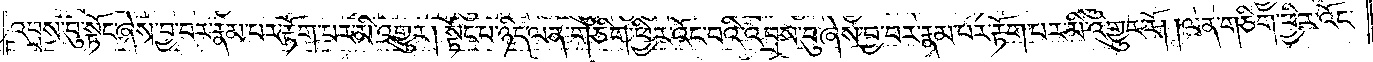འབྲས་བུ་སྟོང་ཞེས་བྱ་བར་རྣམ་པར་རྟོག་པར་མི་འགྱུར། སྟོང་པ་ཉིད་ལན་གཅིག་ཕྱིར་འོང་བའི་འབྲས་བུ་ཞེས་བྱ་བར་རྣམ་པར་རྟོག་པར་མི་འགྱུར་རོ། །ལན་གཅིག་ཕྱིར་འོང་
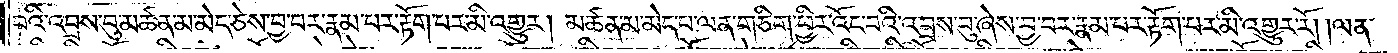བའི་འབྲས་བུ་མཚན་མ་མེད་ཅེས་བྱ་བར་རྣམ་པར་རྟོག་པར་མི་འགྱུར། མཚན་མ་མེད་པ་ལན་གཅིག་ཕྱིར་འོང་བའི་འབྲས་བུ་ཞེས་བྱ་བར་རྣམ་པར་རྟོག་པར་མི་འགྱུར་རོ། །ལན་
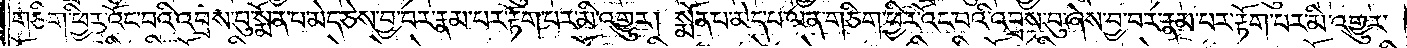ཅིག་ཕྱིར་འོང་བའི་འབྲས་བུ་སྨོན་པ་མེད་ཅེས་བྱ་བར་རྣམ་པར་རྟོག་པར་མི་འགྱུར། སྨོན་པ་མེད་པ་ལན་གཅིག་ཕྱིར་འོང་བའི་འབྲས་བུ་ཞེས་བྱ་བར་རྣམ་པར་རྟོག་པར་མི་འགྱུར་
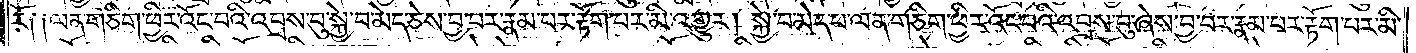རོ༏ ༏ལན་གཅིག་ཕྱིར་འོང་བའི་འབྲས་བུ་སྐྱེ་བ་མེད་ཅེས་བྱ་བར་རྣམ་པར་རྟོག་པར་མི་འགྱུར། སྐྱེ་བ་མེད་པ་ལན་གཅིག་ཕྱིར་འོང་བའི་འབྲས་བུ་ཞེས་བྱ་བར་རྣམ་པར་རྟོག་པར་མི་
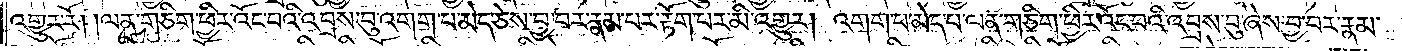འགྱུར་རོ། །ལན་གཅིག་ཕྱིར་འོང་བའི་འབྲས་བུ་འགག་པ་མེད་ཅེས་བྱ་བར་རྣམ་པར་རྟོག་པར་མི་འགྱུར། འགག་པ་མེད་པ་ལན་གཅིག་ཕྱིར་འོང་བའི་འབྲས་བུ་ཞེས་བྱ་བར་རྣམ་
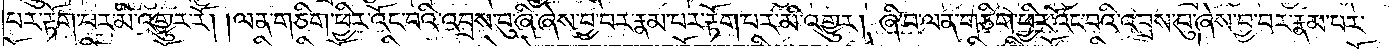པར་རྟོག་པར་མི་འགྱུར་རོ། །ལན་གཅིག་ཕྱིར་འོང་བའི་འབྲས་བུ་ཞི་ཞེས་བྱ་བར་རྣམ་པར་རྟོག་པར་མི་འགྱུར། ཞི་བ་ལན་ཅིག་ཕྱིར་འོང་བའི་འབྲས་བུ་ཞེས་བྱ་བར་རྣམ་པར་
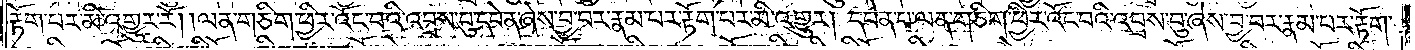རྟོག་པར་མི་འགྱུར་རོ། །ལན་གཅིག་ཕྱིར་འོང་བའི་འབྲས་བུ་དབེན་ཞེས་བྱ་བར་རྣམ་པར་རྟོག་པར་མི་འགྱུར། དབེན་པ་ལན་གཅིག་ཕྱིར་འོང་བའི་འབྲས་བུ་ཞེས་བྱ་བར་རྣམ་པར་རྟོག་
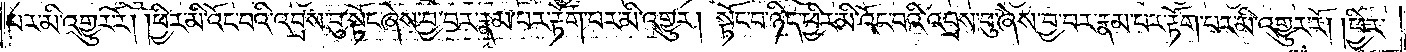པར་མི་འགྱུར་རོ། །ཕྱིར་མི་འོང་བའི་འབྲས་བུ་སྟོང་ཞེས་བྱ་བར་རྣམ་པར་རྟོག་པར་མི་འགྱུར། སྟོང་པ་ཉིད་ཕྱིར་མི་འོང་བའི་འབྲས་བུ་ཞེས་བྱ་བར་རྣམ་པར་རྟོག་པར་མི་འགྱུར་རོ། །ཕྱིར་
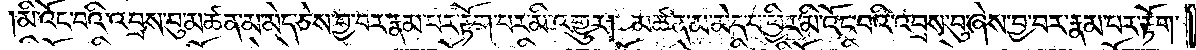མི་འོང་བའི་འབྲས་བུ་མཚན་མ་མེད་ཅེས་བྱ་བར་རྣམ་པར་རྟོག་པར་མི་འགྱུར། མཚན་མ་མེད་པ་ཕྱིར་མི་འོང་བའི་འབྲས་བུ་ཞེས་བྱ་བར་རྣམ་པར་རྟོག་
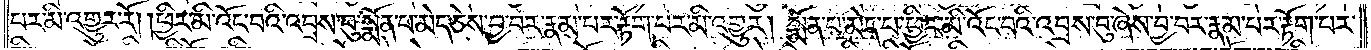པར་མི་འགྱུར་རོ། །ཕྱིར་མི་འོང་བའི་འབྲས་བུ་སྨོན་པ་མེད་ཅེས་བྱ་བར་རྣམ་པར་རྟོག་པར་མི་འགྱུར། སྨོན་པ་མེད་པ་ཕྱིར་མི་འོང་བའི་འབྲས་བུ་ཞེས་བྱ་བར་རྣམ་པར་རྟོག་པར་
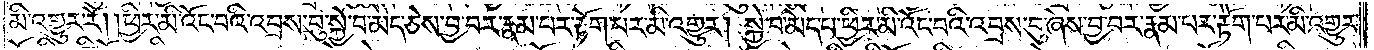མི་འགྱུར་རོ། །ཕྱིར་མི་འོང་བའི་འབྲས་བུ་སྐྱེ་བ་མེད་ཅེས་བྱ་བར་རྣམ་པར་རྟོག་པར་མི་འགྱུར། སྐྱེ་བ་མེད་པ་ཕྱིར་མི་འོང་བའི་འབྲས་བུ་ཞེས་བྱ་བར་རྣམ་པར་རྟོག་པར་མི་འགྱུར་
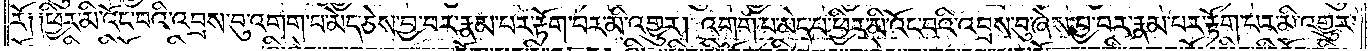རོ༑ ༑ཕྱིར་མི་འོང་བའི་འབྲས་བུ་འགག་པ་མེད་ཅེས་བྱ་བར་རྣམ་པར་རྟོག་པར་མི་འགྱུར། འགག་པ་མེད་པ་ཕྱིར་མི་འོང་བའི་འབྲས་བུ་ཞེས་བྱ་བར་རྣམ་པར་རྟོག་པར་མི་འགྱུར་
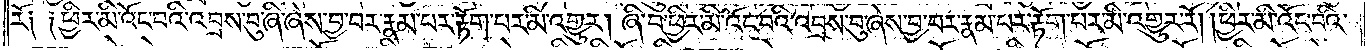རོ༏ ༏ཕྱིར་མི་འོང་བའི་འབྲས་བུ་ཞི་ཞེས་བྱ་བར་རྣམ་པར་རྟོག་པར་མི་འགྱུར། ཞི་བ་ཕྱིར་མི་འོང་བའི་འབྲས་བུ་ཞེས་བྱ་བར་རྣམ་པར་རྟོག་པར་མི་འགྱུར་རོ། །ཕྱིར་མི་འོང་བའི་
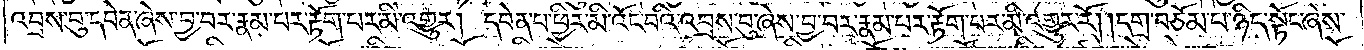འབྲས་བུ་དབེན་ཞེས་བྱ་བར་རྣམ་པར་རྟོག་པར་མི་འགྱུར། དབེན་པ་ཕྱིར་མི་འོང་བའི་འབྲས་བུ་ཞེས་བྱ་བར་རྣམ་པར་རྟོག་པར་མི་འགྱུར་རོ། །དགྲ་བཅོམ་པ་ཉིད་སྟོང་ཞེས་
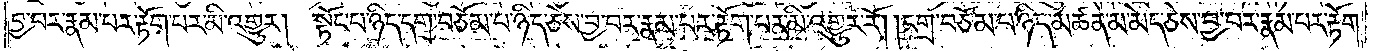བྱ་བར་རྣམ་པར་རྟོག་པར་མི་འགྱུར། སྟོང་པ་ཉིད་དགྲ་བཅོམ་པ་ཉིད་ཅེས་བྱ་བར་རྣམ་པར་རྟོག་པར་མི་འགྱུར་རོ། །དགྲ་བཅོམ་པ་ཉིད་མཚན་མ་མེད་ཅེས་བྱ་བར་རྣམ་པར་རྟོག་
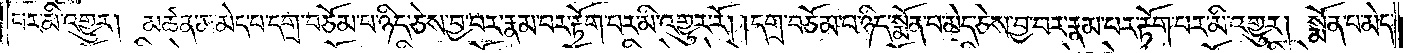པར་མི་འགྱུར། མཚན་མ་མེད་པ་དགྲ་བཅོམ་པ་ཉིད་ཅེས་བྱ་བར་རྣམ་པར་རྟོག་པར་མི་འགྱུར་རོ། །དགྲ་བཅོམ་པ་ཉིད་སྨོན་པ་མེད་ཅེས་བྱ་བར་རྣམ་པར་རྟོག་པར་མི་འགྱུར། སྨོན་པ་མེད་
